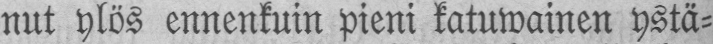nut ylös ennenkuin pieni katuwainen ystä-
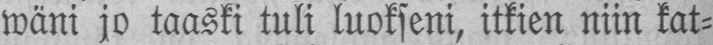wäni jo taaski tuli luokseni, itkien niin kat-
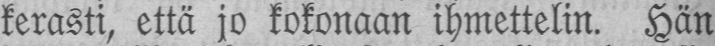kerasti, että jo kokonaan ihmettelin. Hän
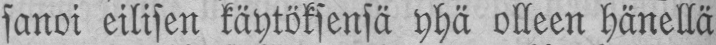sanoi eilisen käytöksensä yhä olleen hänellä
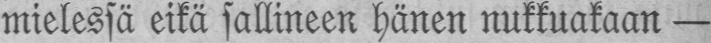mielessä eikä sallineen hänen nukkuakaan —
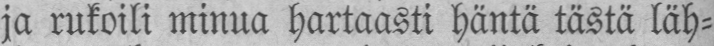ja rukoili minua hartaasti häntä tästä läh-
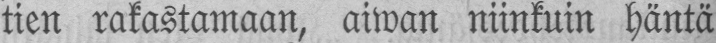tien rakastamaan, aiwan niinkuin häntä
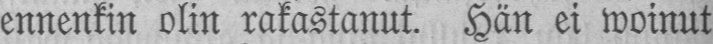ennenkin olin rakastanut. Hän ei woinut
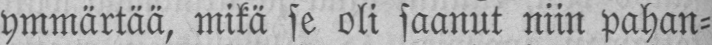ymmärtää, mikä se oli saanut niin pahan-
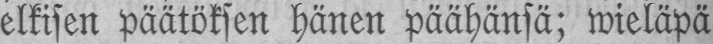elkisen päätöksen hänen päähänsä; wieläpä
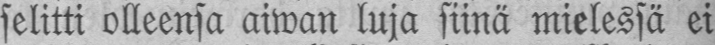selitti olleensa aiwan luja siinä mielessä ei
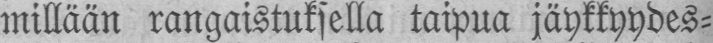millään rangaistuksella taipua jäykkyydes-
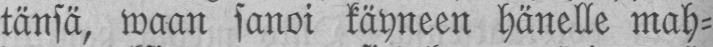tänsä, waan sanoi käyneen hänelle mah-
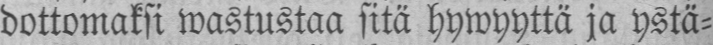dottomaksi wastustaa sitä hywyyttä ja ystä-
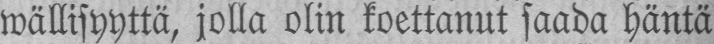wällisyyttä, jolla olin koettanut saada häntä
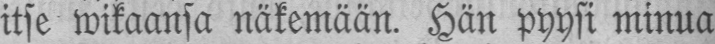itse wikaansa näkemään. Hän pyysi minua
